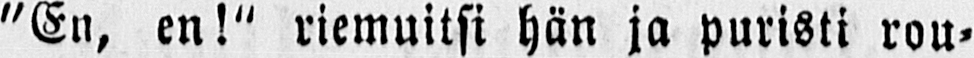"En, en!" riemuitsi hän ja puristi rou-
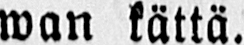wan kättä.
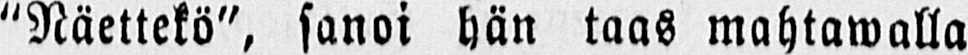"Näettekö", sanoi hän taas mahtawalla
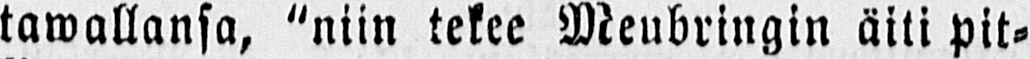tawallansa, "niin tekee Meubringin äiti pit-
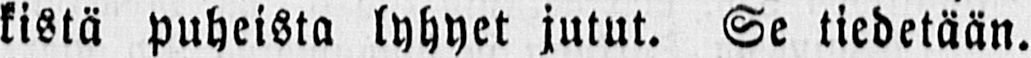kistä puheista lyhyet jutut. Se tiedetään.
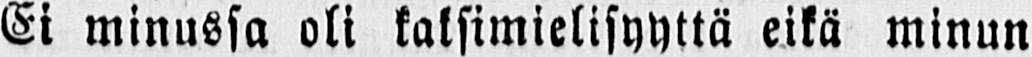Ei minussa oli kaksimielisyyttä eikä minun
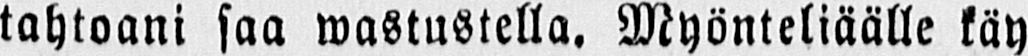tahtoani saa wastustella. Myönteliäälle käy
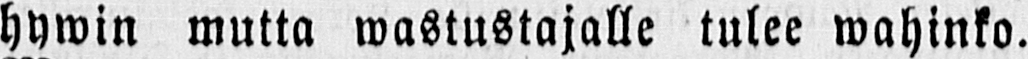hywin mutta wastustajalle tulee wahinko.
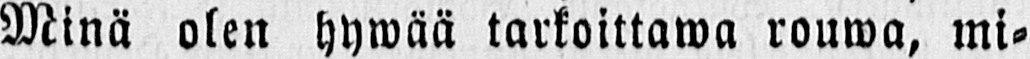Minä olen hywää tarkoittawa rouwa, mi-
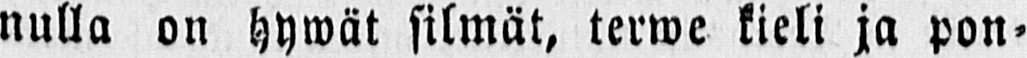nulla on hywät silmät, terwe kieli ja pon-
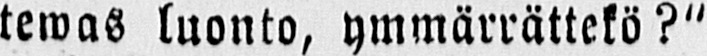tewas luonto, ymmärrättekö?"
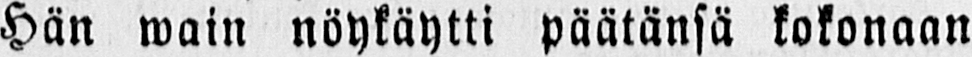Hän wain nöykäytti päätänsä kokonaan
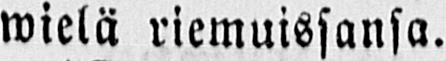wielä riemuissansa.
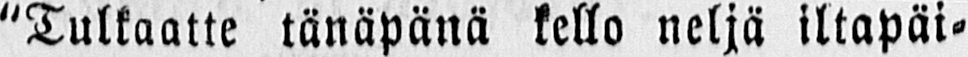"Tulkaatte tänäpänä kello neljä iltapäi-
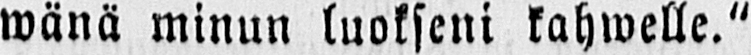wänä minun luokseni kahwelle."
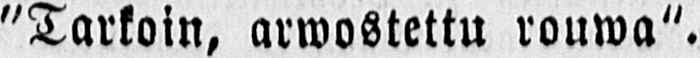"Tarkoin, arwostettu rouwa".
